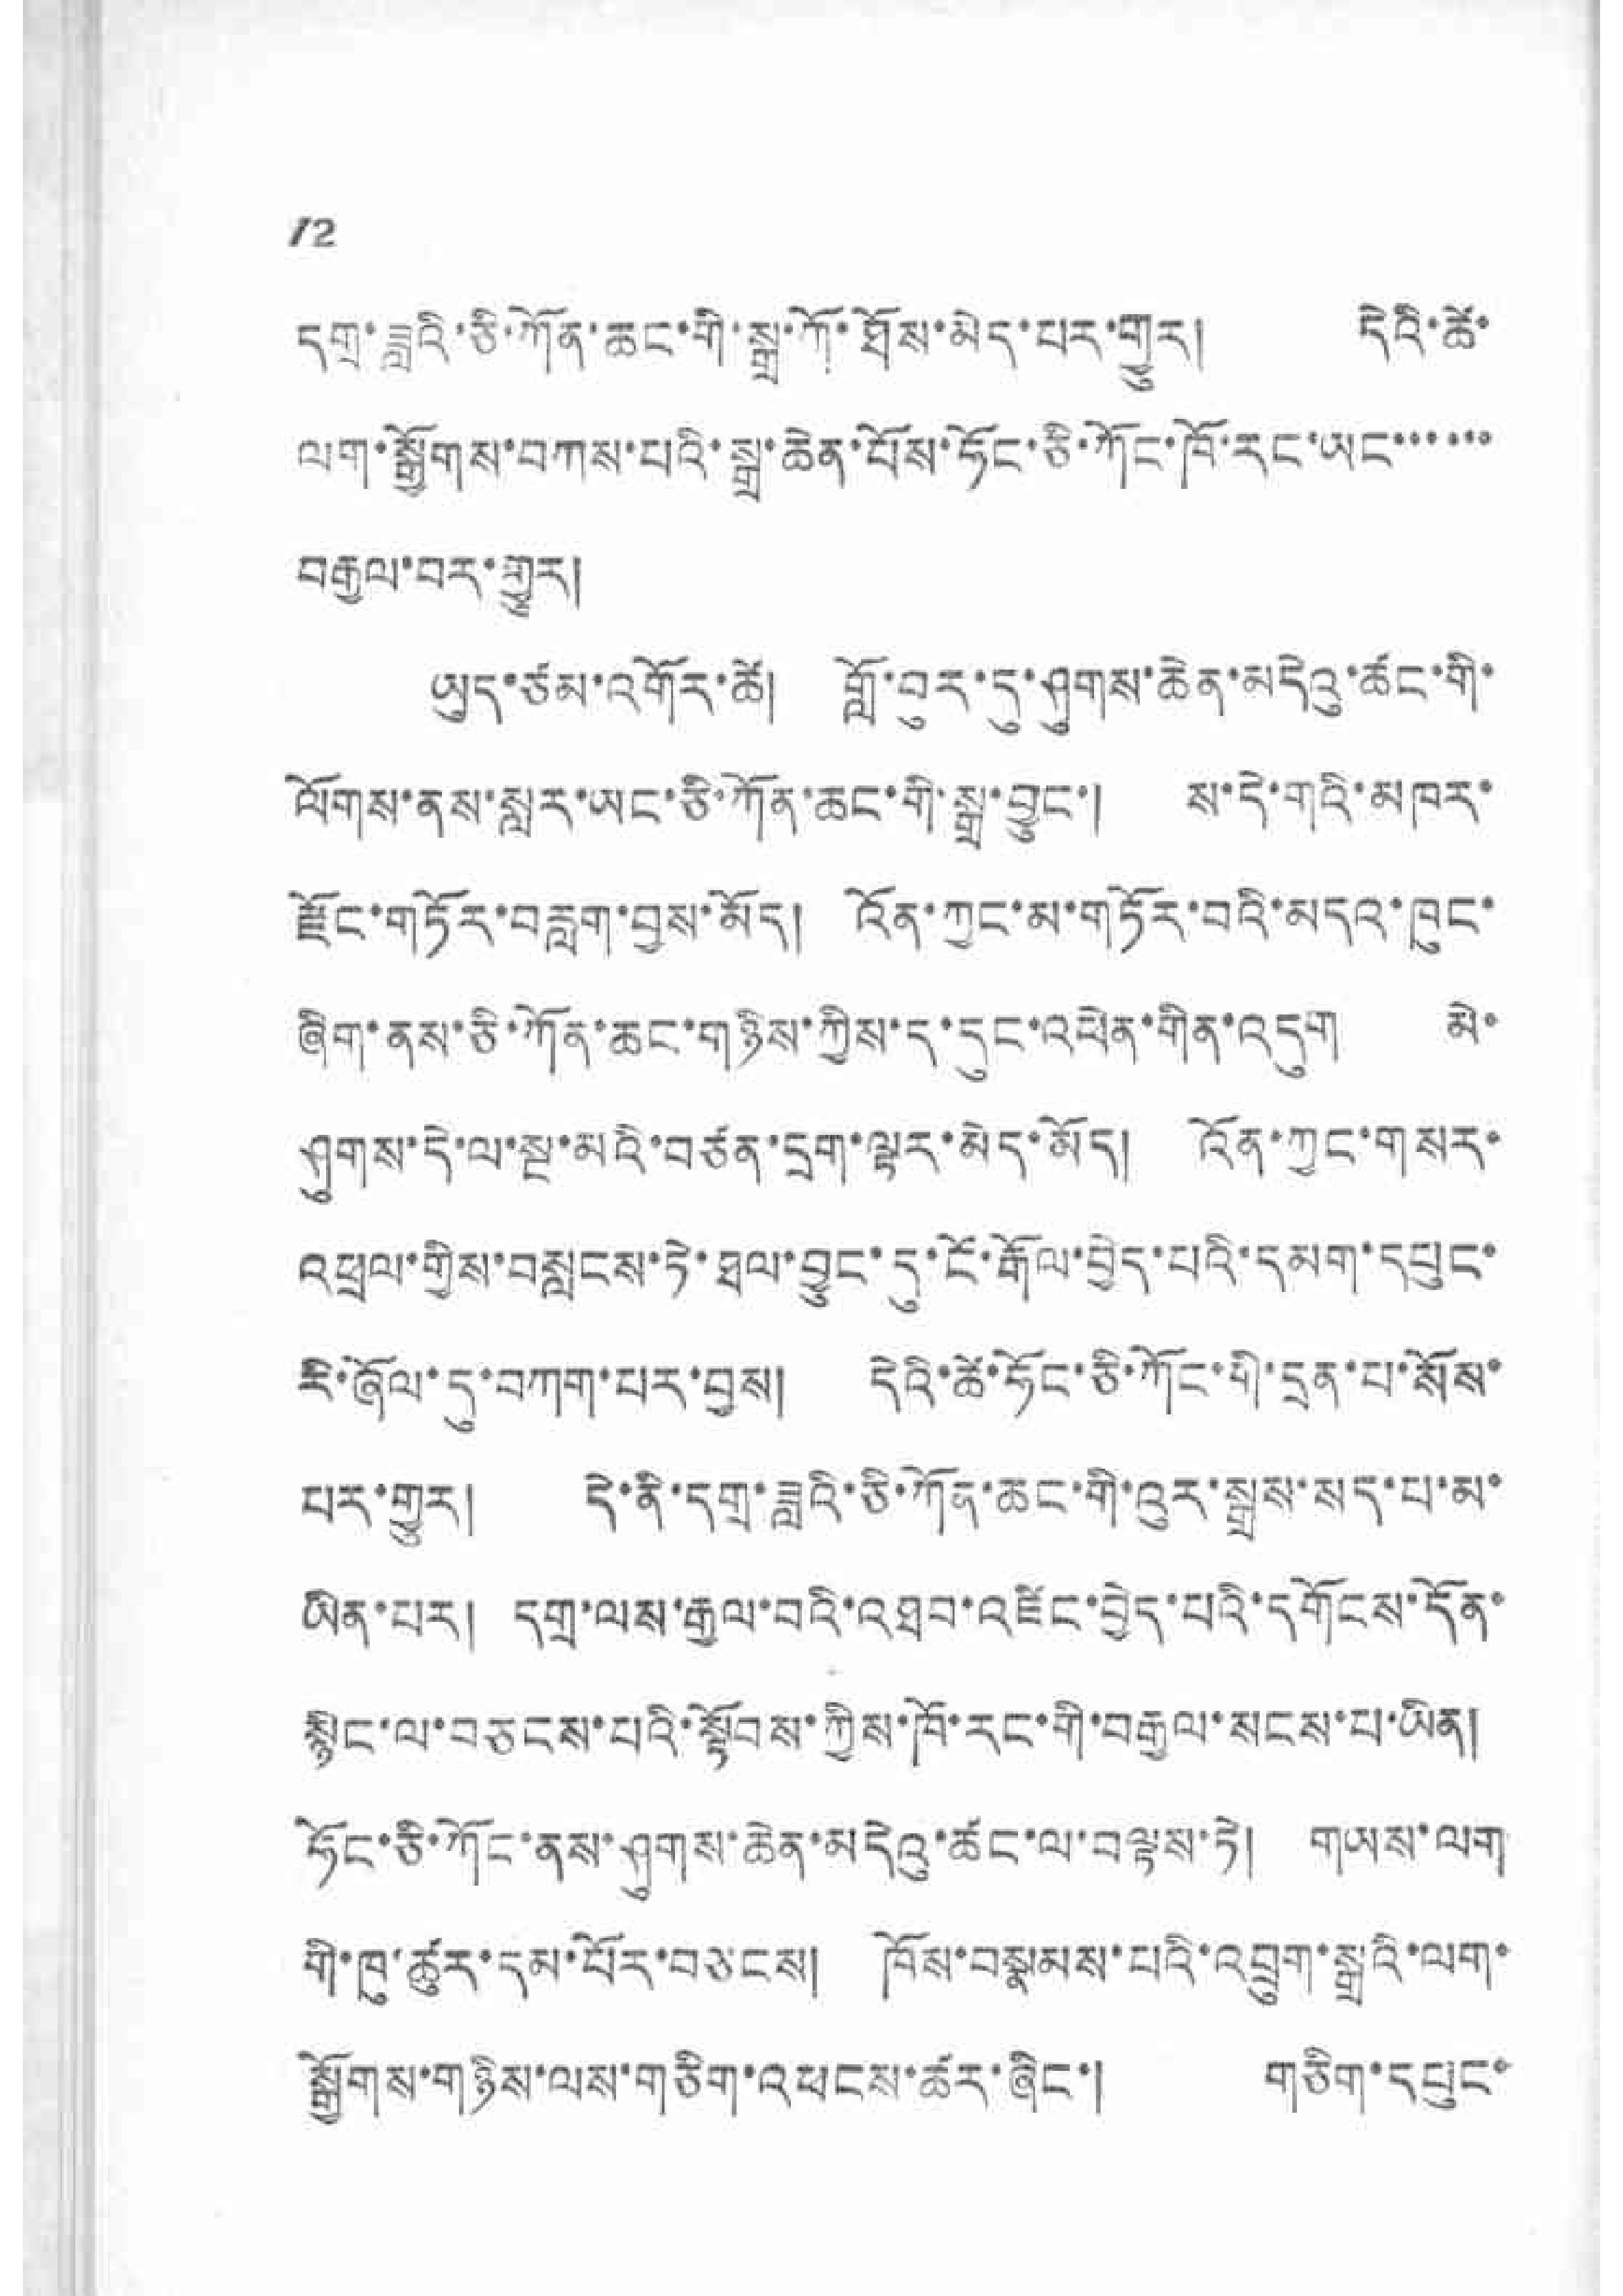12
དགྲ་ཟླའི་ཅི་ཀོན་ཆུང་གི་སྒྲ་ཀོ་ཐོས་མེད་པར་གྱུར། དེའི་ཚེ་
ལག་སྒྱོགས་བཀས་པའི་སྒྲ་ཆེན་པོས་ཧོང་ཅི་ཀོང་ཁོ་རང་ཡང་་་་་་
བརྒྱལ་བར་གྱུར།
ཡུད་ཙམ་འགོར་ཚེ། གློ་བུར་དུ་ཤུགས་ཆེན་མདེའུ་ཚང་གི་
ལོགས་ནས་སླར་ཡང་ཅི་ཀོན་ཆང་གི་སྒྲ་བྱུང་། ས་དེ་གའི་མཁར་
རྫོང་གཏོར་བརླག་བྱས་མོད། འོན་ཀྱང་མ་གཏོར་བའི་མདའ་ཁུང་
ཞིག་ནས་ཅི་ཀོན་ཆུང་གཉིས་ཀྱིས་ད་དུང་འཕྲེན་གིན་འདུག མེ་
ཤུགས་དེ་ལ་སྔ་མའི་བཙན་དྲག་ལྟར་མེད་མོད། འོན་ཀྱང་གསར་
འཕྲལ་གྱིས་བསླངས་ཏེ་ཐལ་བྱུང་དུ་ངོ་རྒོལ་བྱེད་པའི་དམག་དཔུང་
རི་ཞོལ་དུ་བཀག་པར་བྱས། དེའི་ཚོ་ཧོང་ཅི་ཀོང་གི་དྲན་པ་སོས་
པར་གྱུར། དེ་ནི་དགྲ་ཟླའི་ཅི་ཀོན་ཆང་གི་འུར་སྒྲས་སད་པ་མ་
ཡིན་པར། དགྲ་ལས་རྒྱལ་བའི་འཐབ་འཛོང་བྱེད་པའི་དགོངས་དོན་
སྙིང་ལ་བཅངས་པའི་སྟོབས་ཀྱིས་ཁོ་རང་གི་བརྒྱལ་སངས་པ་ཡིན།
ཧོང་ཅི་ཀོང་ནས་ཤུགས་ཆེན་མདེའུ་ཚང་ལ་བལྟས་ཏེ། གཡས་ལག
གི་ཁུ་ཚུར་དམ་པོར་བཅངས། ཁོས་བསྣམས་པའི་འབྲུག་སྒྲའི་ལག་
སྒྱོགས་གཉིས་ལས་གཅིག་འཕངས་ཚར་ཞིང་། གཅིག་དཔུང་
